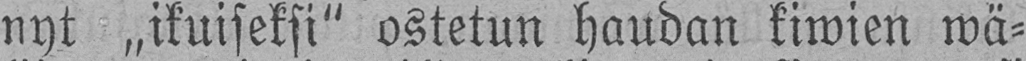nyt ˶ikuiseksi" ostetun haudan kiwien wä-
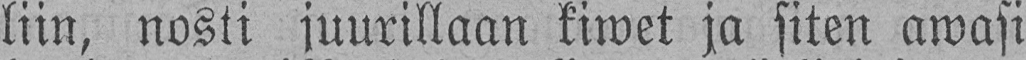liin, nosti juurillaan kiwet ja siten awasi
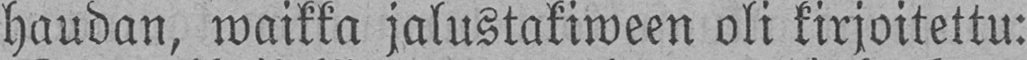haudan, waikka jalustakiween oli kirjoitettu:
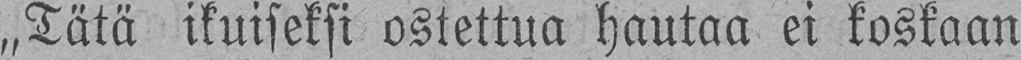„Tätä ikuiseksi ostettua hautaa ei koskaan
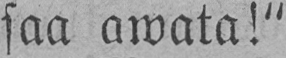saa awata!"
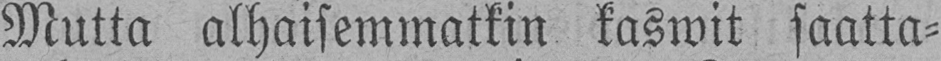Mutta alhaisemmatkin kaswit saatta-
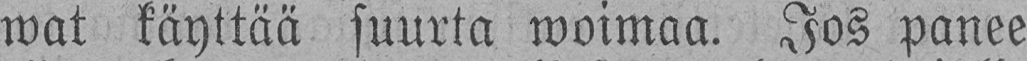wat käyttää suurta woimaa. Jos panee
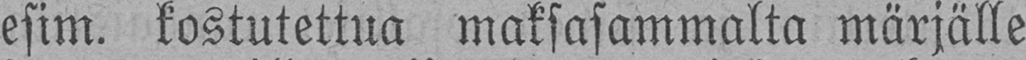esim. kostutettua maksasammalta märjälle
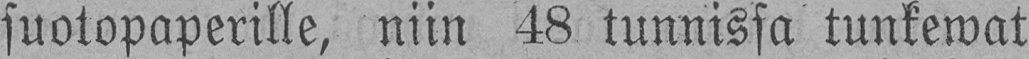suotopaperille, niin 48 tunnissa tunkewat
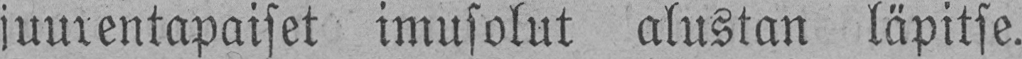juurentapaiset imusolut alustan läpitse.
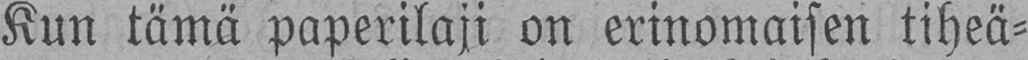Kun tämä paperilaji on erinomaisen tiheä-
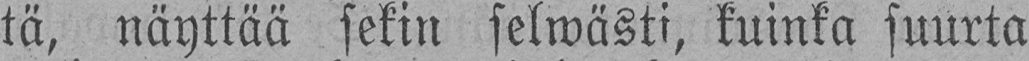tä, näyttää sekin selwästi, kuinka suurta
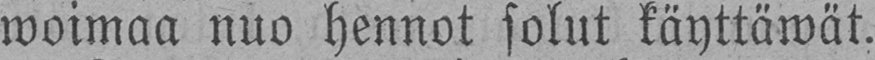woimaa nuo hennot solut käyttäwät.
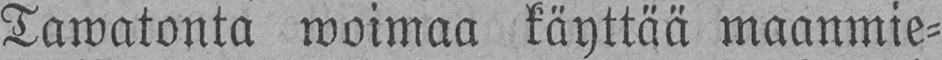Tawatonta woimaa käyttää maanmie-
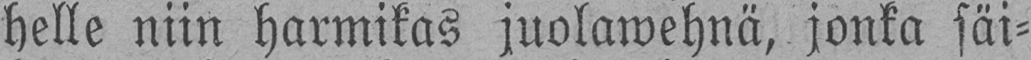helle niin harmikas juolawehnä, jonka säi-
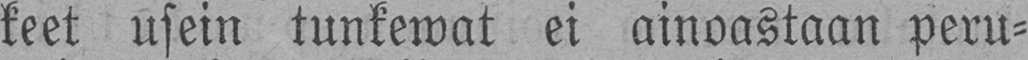keet usein tunkewat ei ainoastaan peru-
